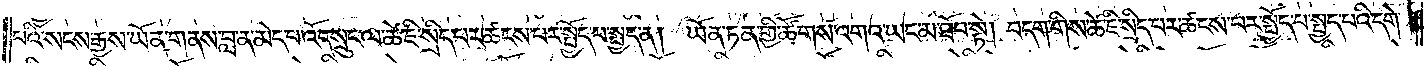པའི་སངས་རྒྱས་ཡོན་གནས་བླ་ན་མེད་པ་འོད་སྲུང་ལ་ཚེ་ཇི་སྲིད་པར་ཚངས་པར་སྤྱོད་པ་སྤྱད་ན། ཡོན་ཏན་གྱི་ཚོགས་འགའ་ཡང་མ་ཐོབ་སྟེ། བདག་གིས་ཚེ་ཇི་སྲིད་པར་ཚངས་པར་སྤྱོད་པ་སྤྱད་པའི་དགེ་
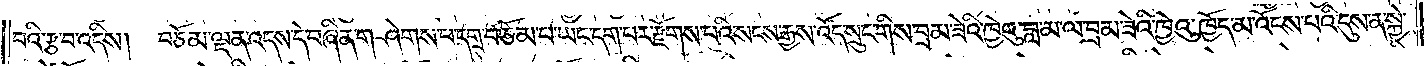བའི་རྩ་བ་འདིས། བཅོམ་ལྡན་འདས་དེ་བཞིན་གཤེགས་པ་དགྲ་བཅོམ་པ་ཡང་དག་པར་རྫོགས་པའི་སངས་རྒྱས་འོད་སྲུང་གིས་བྲམ་ཟེའི་ཁྱེའུ་བླ་མ་ལ་བྲམ་ཟེའི་ཁྱེའུ་ཁྱོད་མ་འོངས་པའི་དུས་ན་སྐྱེ་
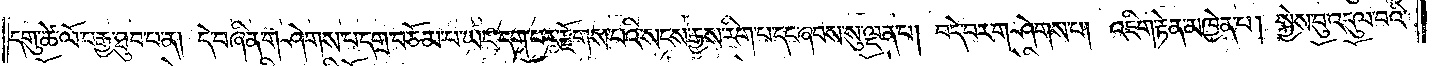དགུ་ཚེ་ལོ་བརྒྱ་ཐུབ་པ་ན། དེ་བཞིན་གཤེགས་པ་དགྲ་བཅོམ་པ་ཡང་དག་པར་རྫོགས་པའི་སངས་རྒྱས་རིག་པ་དང་ཞབས་སུ་ལྡན་པ། བདེ་བར་གཤེགས་པ། འཇིག་རྟེན་མཁྱེན་པ། སྐྱེས་བུ་འདུལ་བའི་
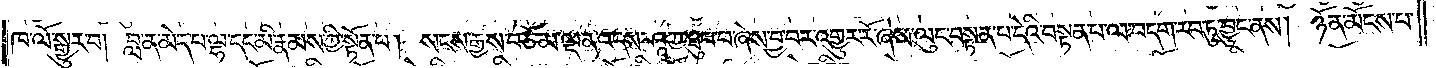ཁ་ལོ་སྒྱུར་བ། བླ་ན་མེད་པ་ལྷ་དང་མི་རྣམས་ཀྱི་སྟོན་པ། སངས་རྒྱས་བཅོམ་ལྡན་འདས་ཤཱཀྱ་ཐུབ་པ་ཞེས་བྱ་བར་འགྱུར་རོ་ཞེས་ལུང་བསྟན་པ་དེའི་བསྟན་པ་ལ་བདག་རབ་ཏུ་བྱུང་ནས། ཉོན་མོངས་པ་
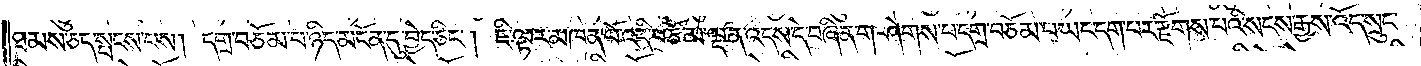ཐམས་ཅད་སྤངས་པས། དགྲ་བཅོམ་པ་ཉིད་མངོན་དུ་བྱེད་ཅིང༌། ཇི་ལྟར་མཁན་པོ་འདི་བཅོམ་ལྡན་འདས་དེ་བཞིན་གཤེགས་པ་དགྲ་བཅོམ་པ་ཡང་དག་པར་རྫོགས་པའི་སངས་རྒྱས་འོད་སྲུང་
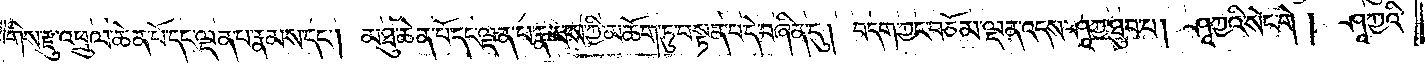གིས་རྫུ་འཕྲུལ་ཆེན་པོ་དང་ལྡན་པ་རྣམས་དང༌། མཐུ་ཆེན་པོ་དང་ལྡན་པ་རྣམས་ཀྱི་མཆོག་ཏུ་བསྟན་པ་དེ་བཞིན་དུ། བདག་ཀྱང་བཅོམ་ལྡན་འདས་ཤཱཀྱ་ཐུབ་པ། ཤཱཀྱའི་སེང་གེ། ཤཱཀྱའི་
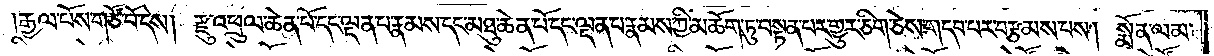རྒྱལ་པོས་གཙོ་བོ་དེས། རྫུ་འཕྲུལ་ཆེན་པོ་དང་ལྡན་པ་རྣམས་དང་མཐུ་ཆེན་པོ་དང་ལྡན་པ་རྣམས་ཀྱི་མཆོག་ཏུ་བསྟན་པར་གྱུར་ཅིག་ཅེས་གདབ་པར་བརྩམས་པས། སྨོན་ལམ་
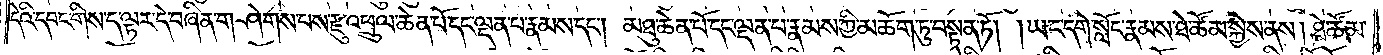དེའི་དབང་གིས་ད་ལྟར་དེ་བཞིན་གཤེགས་པས་རྫུ་འཕྲུལ་ཆེན་པོ་དང་ལྡན་པ་རྣམས་དང༌། མཐུ་ཆེན་པོ་དང་ལྡན་པ་རྣམས་ཀྱི་མཆོག་ཏུ་བསྟན་ཏོ། །ཡང་དགེ་སློང་རྣམས་ཐེ་ཚོམ་སྐྱེས་ནས། ཐེ་ཚོམ་
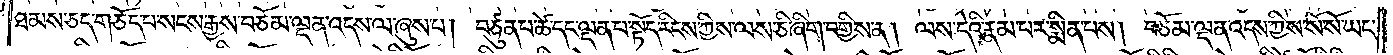ཐམས་ཅད་གཅོད་པ་སངས་རྒྱས་བཅོམ་ལྡན་འདས་ལ་ཞུས་པ། བཙུན་པ་ཚེ་དང་ལྡན་པ་སྟོད་རིངས་ཀྱིས་ལས་ཅི་ཞིག་བགྱིས་ན། ལས་དེའི་རྣམ་པར་སྨིན་པས། བཅོམ་ལྡན་འདས་ཀྱིས་སོ་སོ་ཡང་
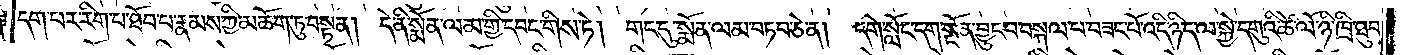དག་པར་རིག་པ་ཐོབ་པ་རྣམས་ཀྱི་མཆོག་ཏུ་བསྟན། དེ་ནི་སྨོན་ལམ་གྱི་དབང་གིས་ཏེ། གང་དུ་སྨོན་ལམ་བཏབ་ཅེ་ན། དགེ་སློང་དག་སྔོན་བྱུང་བ་བསྐལ་པ་བཟང་པོ་འདི་ཉིད་ལ་སྐྱེ་དགུའི་ཚེ་ལོ་ཉི་ཁྲི་ཐུབ་
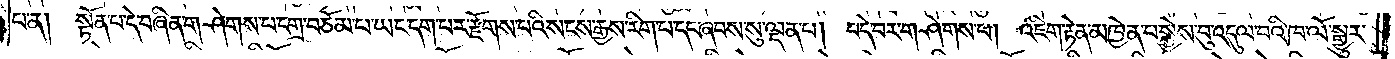པ་ན། སྟོན་པ་དེ་བཞིན་གཤེགས་པ་དགྲ་བཅོམ་པ་ཡང་དག་པར་རྫོགས་པའི་སངས་རྒྱས་རིག་པ་དང་ཞབས་སུ་ལྡན་པ། བདེ་བར་གཤེགས་པ། འཇིག་རྟེན་མཁྱེན་པ་སྐྱེས་བུ་འདུལ་བའི་ཁ་ལོ་སྒྱུར་
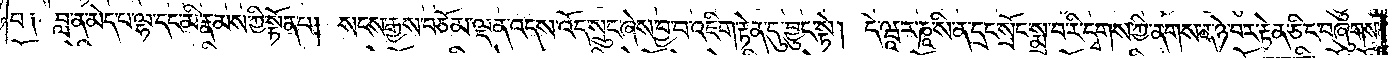བ༑ བླ་ན་མེད་པ་ལྷ་དང་མི་རྣམས་ཀྱི་སྟོན་པ། སངས་རྒྱས་བཅོམ་ལྡན་འདས་འོད་སྲུང་ཞེས་བྱ་བ་འཇིག་རྟེན་དུ་བྱུང་སྟེ། དེ་ཝཱ་ར་ཎཱ་སི་ན་དྲང་སྲོང་སྨྲ་བ་རི་དྭགས་ཀྱི་ནགས་ན་ཉེ་བར་རྟེན་ཅིང་བཞུགས་
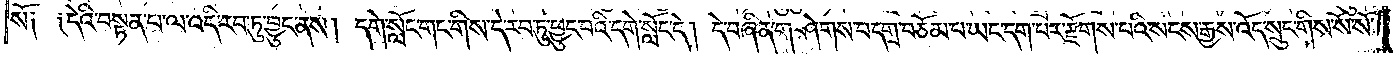སོ༑ ༑ དེའི་བསྟན་པ་ལ་འདི་རབ་ཏུ་བྱུང་ནས། དགེ་སློང་གང་གིས་དེ་རབ་ཏུ་ཕྱུང་བའི་དགེ་སློང་དེ། དེ་བཞིན་གཤེགས་པ་དགྲ་བཅོམ་པ་ཡང་དག་པར་རྫོགས་པའི་སངས་རྒྱས་འོད་སྲུང་གིས་སོ་སོ་
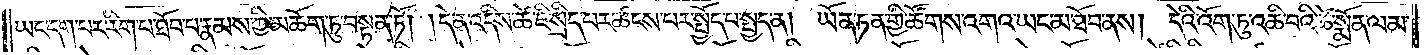ཡང་དག་པར་རིག་པ་ཐོབ་པ་རྣམས་ཀྱི་མཆོག་ཏུ་བསྟན་ཏོ། །དེ་ན་འདིས་ཚེ་ཇི་སྲིད་པར་ཚངས་པར་སྤྱོད་པ་སྤྱད་ན། ཡོན་ཏན་གྱི་ཚོགས་འགའ་ཡང་མ་ཐོབ་ནས། དེའི་འོག་ཏུ་འཆི་བའི་ཚེ་སྨོན་ལམ་
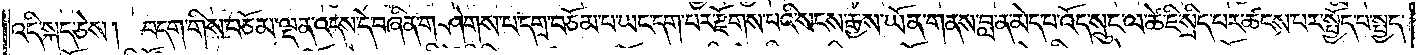འདི་སྐད་ཅེས། བདག་གིས་བཅོམ་ལྡན་འདས་དེ་བཞིན་གཤེགས་པ་དགྲ་བཅོམ་པ་ཡང་དག་པར་རྫོགས་པའི་སངས་རྒྱས་ཡོན་གནས་བླ་ན་མེད་པ་འོད་སྲུང་ལ་ཚེ་ཇི་སྲིད་པར་ཚངས་པར་སྤྱོད་པ་སྤྱད་
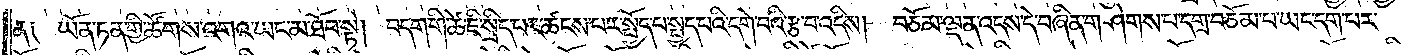ན༑ ཡོན་ཏན་གྱི་ཚོགས་འགའ་ཡང་མ་ཐོབ་སྟེ། བདག་གི་ཚེ་ཇི་སྲིད་པར་ཚངས་པར་སྤྱོད་པ་སྤྱད་པའི་དགེ་བའི་རྩ་བ་འདིས། བཅོམ་ལྡན་འདས་དེ་བཞིན་གཤེགས་པ་དགྲ་བཅོམ་པ་ཡང་དག་པར་
